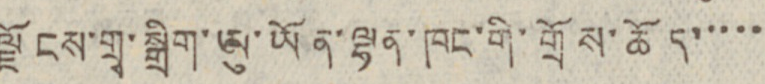ལྗོངས་གྲྭ་སྒྲིག་ཨུ་ཡོན་ལྷན་ཁང་གི་གྲོས་ཆོད་་་་་
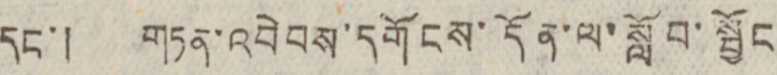དང་། གཏན་འབེབས་དགོངས་དོན་ལ་སློབ་སྦྱོང
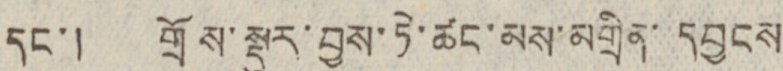དང་། གྲོས་སྡུར་བྱས་ཏེ་ཚང་མས་མགྲིན་དབྱངས
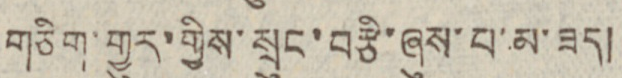གཅིག་གྱུར་གྱིས་སྲུང་བརྩི་ཞུས་པ་མ་ཟད།
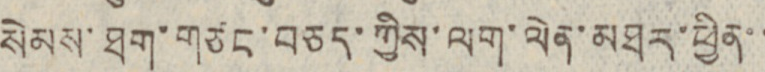སེམས་ཐག་གཙང་བཅད་ཀྱིས་ལག་ལེན་མཐར་ཕྱིན་་
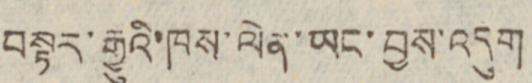བསྟར་རྒྱུའི་ཁས་ལེན་ཡང་བྱས་འདུག
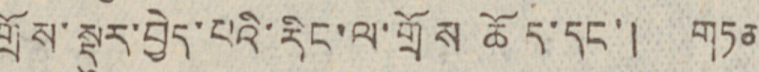གྲོས་སྡུར་བྱེད་པའི་རིང་ལ་གྲོས ཆོད་དང་། གཏན
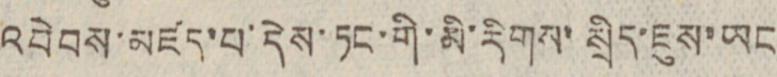འབེབས་མཛད་པ་དེས་ཏང་གི་མི་རིགས་སྲིད་ཇུས་ཡང
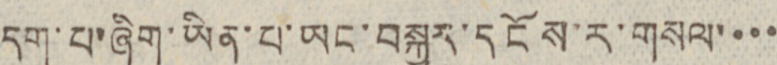དག་པ་ཞིག་ཡིན་པ་ཡང་བསྐྱར་དངོས་ར་གསལ་་་་
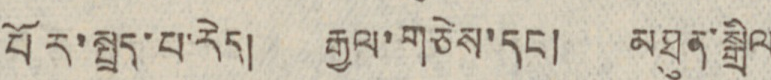པོར་སྤྲད་པ་རེད། རྒྱལ་གཅེས་དང། མཐུན་སྒྲིལ
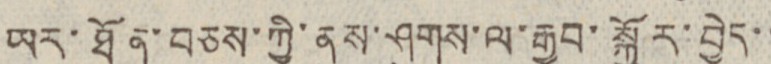ཡར་ཐོན་བཅས་ཀྱི་ནུས་ཤུགས་ལ་རྒྱབ་སྐྱོར་བྱེད་་
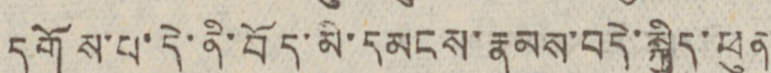དགོས་པ་དེ་ནི་བོད་མི་དམངས་རྣམས་བདེ་སྐྱིད་ཕུན་
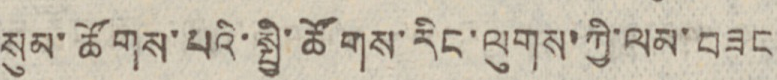སུམ་ཚོགས་པའི་སྤྱི་ཚོགས་རིང་ལུགས་ཀྱི་ལམ་བཟང
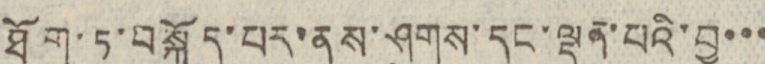ཐོག་ཏུ་བསྐྱོད་པར་ནུས་ཤུགས་དང་ལྡན་པའི་བྱ་་་
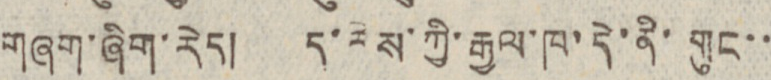གཞག་ཞིག་རེད། ད་རེས་ཀྱི་རྒྱལ་ཁ་དེ་ནི་གུང་་
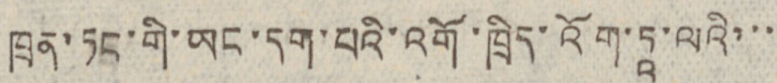ཁྲན་ཏང་གི་ཡང་དག་པའི་འགོ་ཁྲིད་འོག་ཏཱ་ལའི་་་
